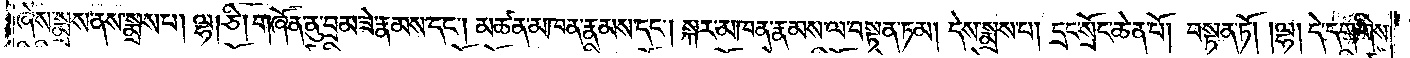ཞེས་སྨྲས་ནས་སྨྲས་པ། ལྷ། ཅི། གཞོན་ནུ་བྲམ་ཟེ་རྣམས་དང༌། མཚན་མཁན་རྣམས་དང༌། སྐར་མཁན་རྣམས་ལ་བསྟན་ཏམ། དེས་སྨྲས་པ། དྲང་སྲོང་ཆེན་པོ། བསྟན་ཏོ། །ལྷ། དེ་དག་གིས་
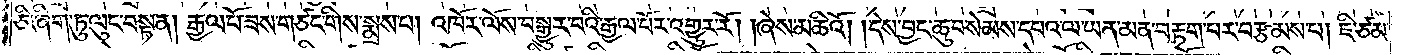ཅི་ཞིག་ཏུ་ལུང་བསྟན། རྒྱལ་པོ་ཟས་གཙང་གིས་སྨྲས་པ། འཁོར་ལོས་བསྒྱུར་བའི་རྒྱལ་པོར་འགྱུར་རོ། །ཞེས་མཆིའོ། །དེས་བྱང་ཆུབ་སེམས་དཔའ་ལ་ཡན་མན་བརྟག་པར་བརྩམས་པ། ཇི་ཙམ་
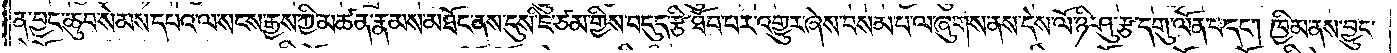ན་བྱང་ཆུབ་སེམས་དཔའ་ལ་སངས་རྒྱས་ཀྱི་མཚན་རྣམས་མཐོང་ནས་དུས་ཇི་ཙམ་གྱིས་བདུད་རྩི་ཐོབ་པར་འགྱུར་ཞེས་བསམ་པ་ལ་ཞུགས་ནས་དེས་ལོ་ཉི་ཤུ་རྩ་དགུ་ལོན་པ་དང༌། ཁྱིམ་ནས་བྱུང་
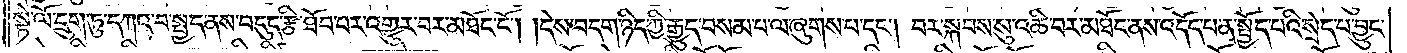སྟེ་ལོ་དྲུག་ཏུ་དཀའ་བ་སྤྱད་ནས་བདུད་རྩི་ཐོབ་པར་འགྱུར་བར་མཐོང་ངོ༌། །དེས་བདག་ཉིད་ཀྱི་རྒྱུད་བསམ་པ་ལ་ཞུགས་པ་དང༌། བར་སྐབས་སུ་འཆི་བར་མཐོང་ནས་འདོད་པ་ན་སྤྱོད་པའི་སྲེད་པ་བྱུང་
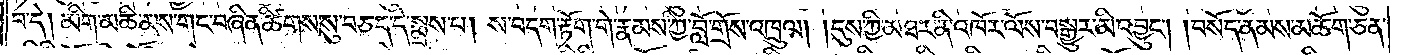བ་དེ། མིག་མཆི་མས་གང་བཞིན་ཚིགས་སུ་བཅད་དེ་སྨྲས་པ། ས་བདག་རྟོག་གེ་རྣམས་ཀྱི་བློ་གྲོས་འཁྲུལ། །དུས་ཀྱི་མཐར་ནི་འཁོར་ལོས་བསྒྱུར་མི་འབྱུང༌། །བསོད་ནམས་མཆོག་ཅན་
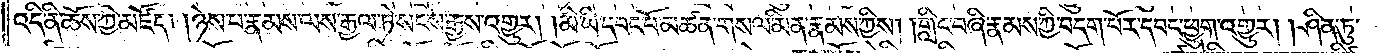འདི་ནི་ཆོས་ཀྱི་མཛོད། །ཉེས་པ་རྣམས་ལས་རྒྱལ་ཏེ་སངས་རྒྱས་འགྱུར། །མི་ཡི་དབང་པོ་མཚན་གསལ་མིན་རྣམས་ཀྱིས། །གླིང་བཞི་རྣམས་ཀྱི་བདག་པོར་དབང་ཕྱུག་འགྱུར། །ཤིན་ཏུ་
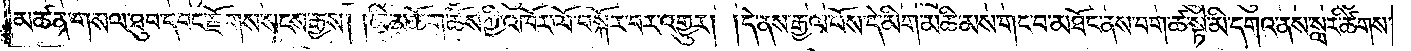མཚན་གསལ་ཐུབ་དབང་རྫོགས་སངས་རྒྱས། །མི་མཆོག་ཆོས་ཀྱི་འཁོར་ལོ་བསྐོར་བར་འགྱུར། །དེ་ནས་རྒྱལ་པོས་དེ་མིག་མཆི་མས་གང་བ་མཐོང་ནས་བག་ཚ་སྟེ་མི་དགའ་ནས་སླར་ཚིགས་
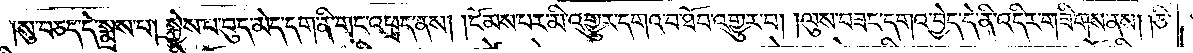སུ་བཅད་དེ་སྨྲས་པ། སྐྱེས་པ་བུད་མེད་དག་ནི་གང་འཕྲད་ནས། །ངོམས་པར་མི་འགྱུར་དགའ་བ་ཐོབ་འགྱུར་བ། །ལུས་བཟང་དགའ་བྱེད་དེ་ནི་འདིར་གཟིགས་ནས། །ཅི་
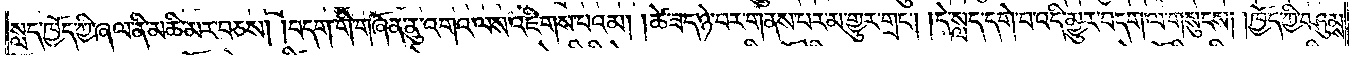སླད་ཁྱོད་ཀྱི་ཞལ་ནི་མཆི་མར་བཅས། །བདག་གི་གཞོན་ནུ་འགའ་ལས་འཇིགས་པའམ། །ཚེ་ཟད་ཉེ་བར་གནས་པར་མ་གྱུར་གྲང༌། །དེ་སླད་དགེ་བ་འདི་མྱུར་བདག་ལ་གསུངས། །ཁྱོད་ཀྱི་བཤུམས་
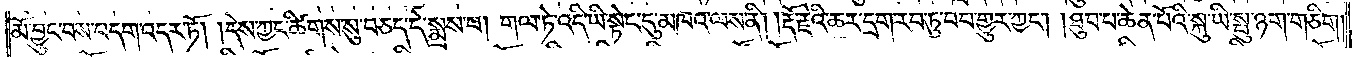མོ་བྱུང་བས་བདག་འདར་ཏོ། །དེས་ཀྱང་ཚིགས་སུ་བཅད་དེ་སྨྲས་པ། གལ་ཏེ་འདི་ཡི་སྟེང་དུ་མཁའ་ལས་ནི། །རྡོ་རྗེའི་ཆར་དྲག་རབ་ཏུ་བབ་གྱུར་ཀྱང༌། །ཐུབ་པ་ཆེན་པོའི་སྐུ་ཡི་སྤུ་ཉག་གཅིག།
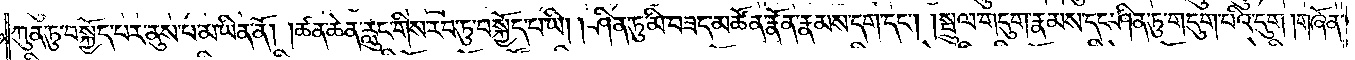ཀུན་ཏུ་བསྐྱོད་པར་ནུས་པ་མ་ཡིན་ནོ། །ཚན་ཆེན་རླུང་གིས་རབ་ཏུ་བསྐྱོད་པ་ཡི། །ཤིན་ཏུ་མི་བཟད་མཚོན་རྣོན་རྣམས་དག་དང༌། །སྤྲུལ་གདུག་རྣམས་དང་ཤིན་ཏུ་གདུག་པའི་དུག །གཞོན་
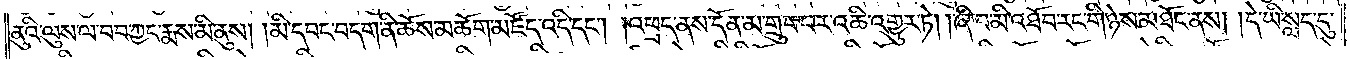ནུའི་ལུས་ལ་བབ་ཀྱང་རྨས་མི་ནུས། །མི་དབང་བདག་ནི་ཆོས་མཆོག་མཛོད་འདི་དང༌། །འཕྲད་ནས་དོན་མ་གྲུབ་པར་འཆི་འགྱུར་ཏེ། །ཞི་བ་མི་འཐོབ་རང་གི་ཉེས་མཐོང་ནས། །དེ་ཡི་སླད་དུ་
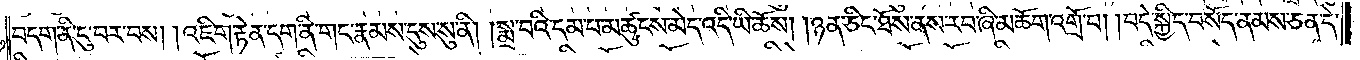བདག་ནི་ངུ་བར་བས། །འཇིག་རྟེན་དག་ནི་གང་རྣམས་དུས་སུ་ནི། །སྨྲ་བའི་དམ་པ་མཚུངས་མེད་འདི་ཡི་ཆོས། །ཉན་ཅིང་ཐོས་ནས་རབ་ཞི་མཆོག་འགྲོ་བ། །བདེ་སྐྱིད་བསོད་ནམས་ཅན་དེ་
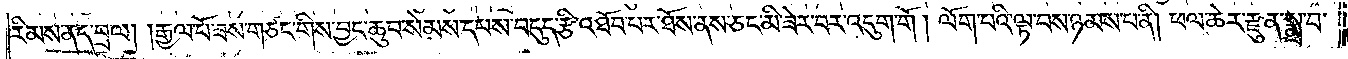རིམས་ནད་བྲལ། །རྒྱལ་པོ་ཟས་གཙང་གིས་བྱང་ཆུབ་སེམས་དཔས་བདུད་རྩི་འཐོབ་པར་ཐོས་ནས་ཅང་མི་ཟེར་བར་འདུག་གོ །ལོག་པའི་ལྟ་བས་ཉམས་པ་ནི། ཕལ་ཆེར་རྫུན་སྨྲ་བ་
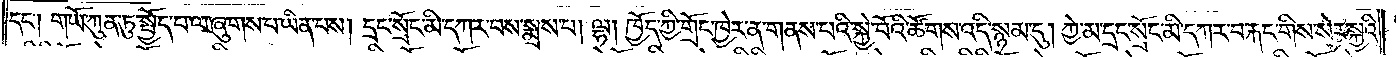དང༌། གཡོ་ཀུན་ཏུ་སྤྱོད་པ་ལ་ཞུགས་པ་ཡན་པས། དྲང་སྲོང་མི་དཀར་བས་སྨྲས་པ། ལྷ། ཁྱོད་ཀྱི་གྲོང་ཁྱེར་ན་གནས་པའི་སྐྱེ་བོའི་ཚོགས་འདི་སྙམ་དུ། ཀྱེ་མ་དྲང་སྲོང་མི་དཀར་བ་རྐང་གིས་སེར་སྐྱའི་
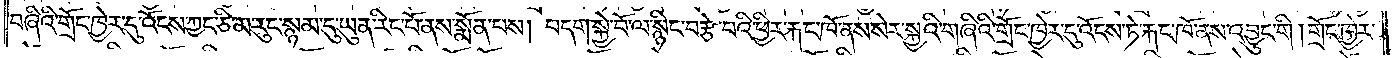བཞིའི་གྲོང་ཁྱེར་དུ་འོངས་ཀྱང་ཅི་མ་རུང་སྙམ་དུ་ཡུན་རིང་པོ་ནས་སྨོན་པས། བདག་སྐྱེ་བོ་ལ་སྙིང་བརྩེ་བའི་ཕྱིར་རྐང་ཁོ་ནས་སེར་སྐྱའི་གཞིའི་གྲོང་ཁྱེར་དུ་འོངས་ཏེ་རྐང་ཁོ་ནས་འབྱུང་གི །གྲོང་ཁྱེར་
